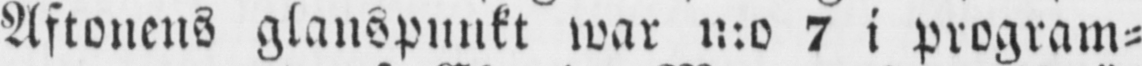Aftonens glanspunkt war n:o 7 i program-
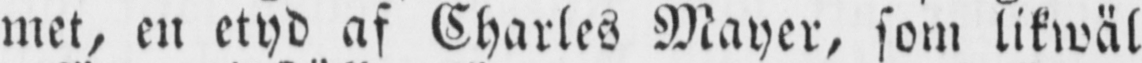met, en etyd af Charles Mayer, som likwäl
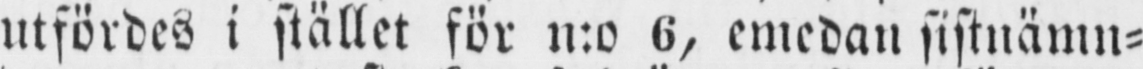utfördes i stället för n:o 6, emedan sistnämn-
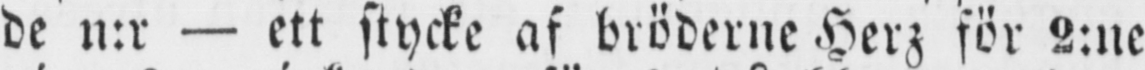de n:r — ett stycke af bröderne Herz för 2:ne
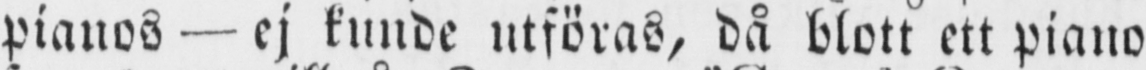pianos — ej kunde utföras, då blott ett piano
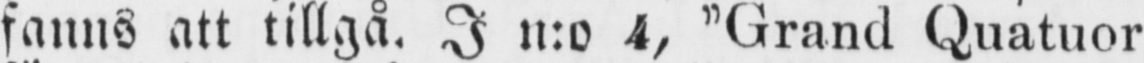fanns att tillgå. I n:o 4, "Grand Quatuor
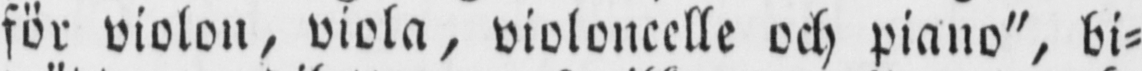för violon, viola, violoncelle och piano", bi-
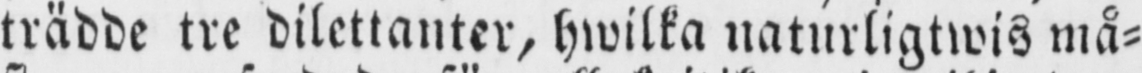trädde tre dilettanter, hwilka naturligtwis må-
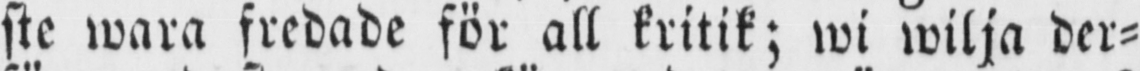ste wara fredade för all kritik; wi wilja der-
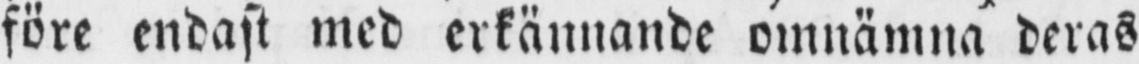före endast med erkännande omnämna deras
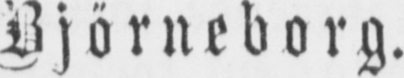Björneborg.
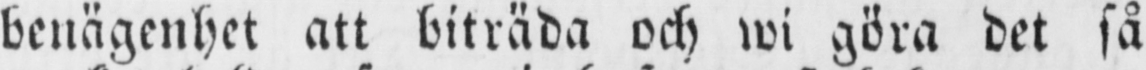benägenhet att biträda och wi göra det så
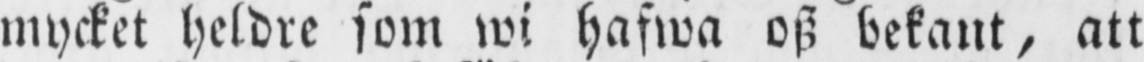mycket heldre som wi hafwa osz bekant, att
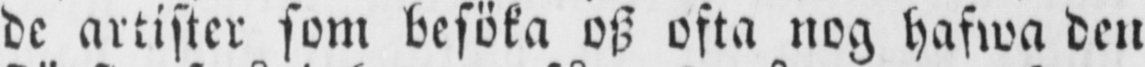de artister som besöka osz ofta nog hafwa den
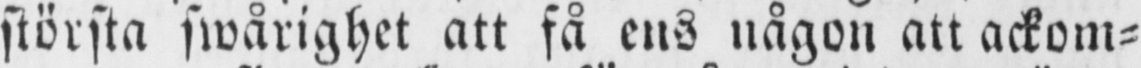största swårighet att få ens någon att ackom-
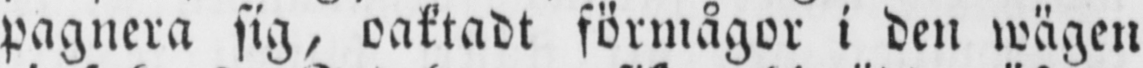pagnera sig, oaktadt förmågor i den wägen
